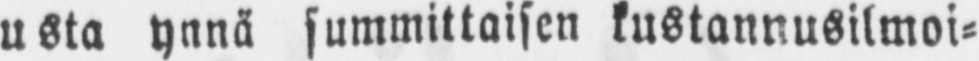usta ynnä summittaisen kustannusilmoi-
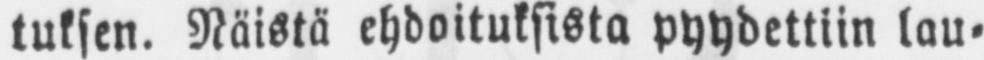tuksen. Näistä ehdoituksista pyydettiin lau-
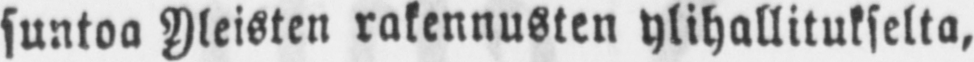suntoa Yleisten rakennusten ylihallitukselta,
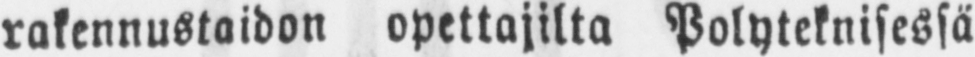rakennustaidon opettajilta Polyteknisessä
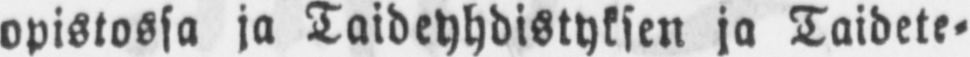opistossa ja Taideyhdistyksen ja Taidete-
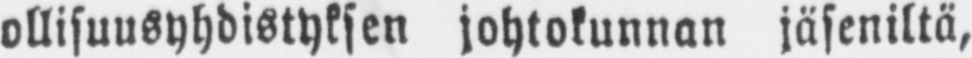ollisuusyhdistyksen johtokunnan jäseniltä,
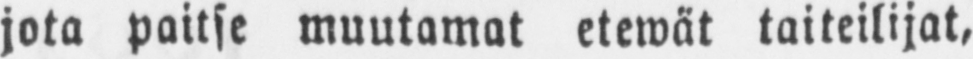jota paitse muutamat etewät taiteilijat,
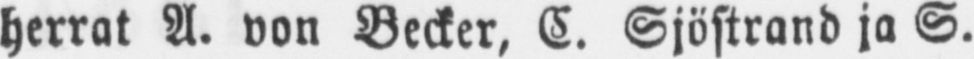herrat A. von Becker, C. Sjöstrand ja S.
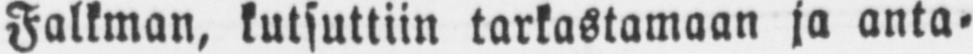Falkman, kutsuttiin tarkastamaan ja anta-
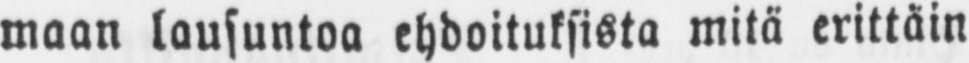maan lausuntoa ehdoituksista mitä erittäin
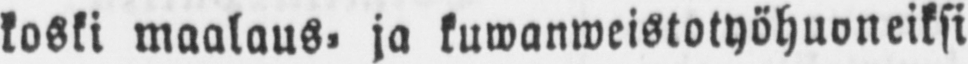koski maalaus, ja kuwanweistotyöhuoneiksi
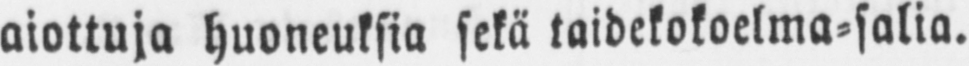aiottuja huoneuksia sekä taidekokoelma-salia.
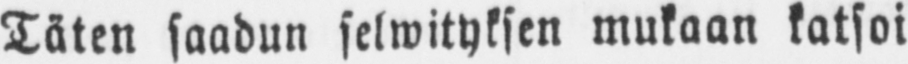Täten saadun selwityksen mukaan katsoi
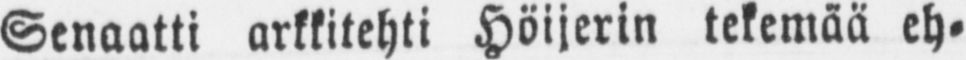Senaatti arkkitehti Höijerin tekemää eh-
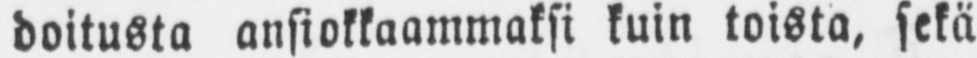doitusta ansiokkaammaksi kuin toista, sekä
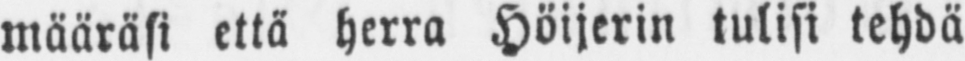määräsi että herra Höijerin tulisi tehdä
